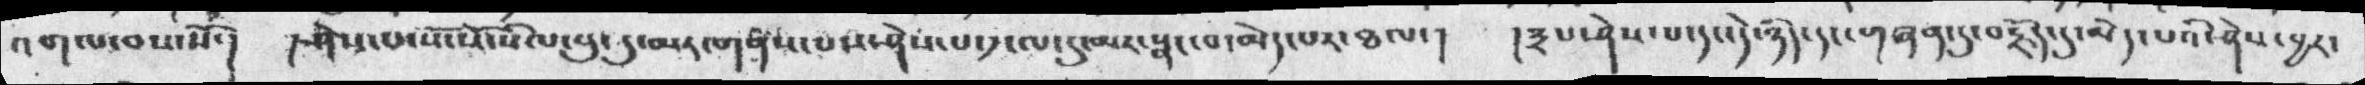འགལ་བས་སོ་།  །ཤེས་པ་སོ་སོ་སིལ་པུ་དུ་མར་གནས་པས་ཤེས་པ་༡་ལ་དུ་མར་སྣང་བ་མེད་པར་ཐལ་། །༣པ་ཤེས་པ་དང་དེ་ཉིད་དང་གཞན་དུ་བརྗོད་དུ་མེད་པའི་ཤེས་བྱར་
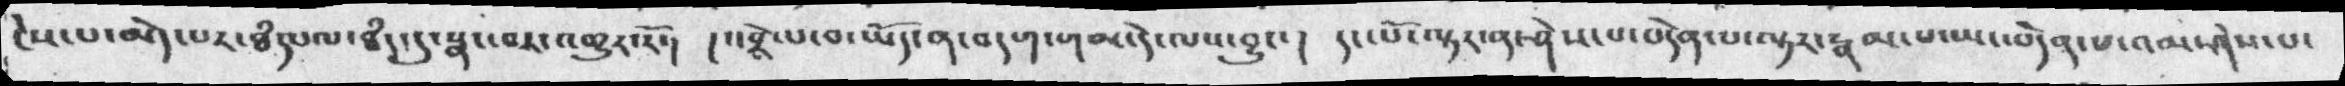ངེས་པ་མེད་པར་ཐཾདཔལ་ཐཾད་དུ་སྣང་བར་འགྱུར་རོ་། །འབྲེལ་བ་ཡོད་ན་བདག་གམ་དེ་ལས་བྱུང་། དང་པོ་ལྟར་ན་ཤེས་པ་བདེན་པ་ལྟར་རྣམ་པ་ཡང་བདེན་པ་འམ་ཤེས་པ་
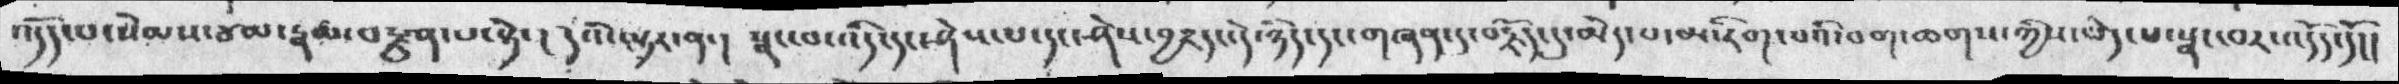འདོད་པ་སེམས་ཙམ་རྣམ་བརྫུན་པ་སྟེ་། དེའི་ལྟར་ན་། སྣང་བ་འདི་དང་ཤེས་པ་དང་ཤེས་བྱ་དང་དེ་ཉིད་དང་གཞན་དུ་བརྗོད་དུ་མེད་པ་མ་རིག་པའི་བག་ཆགས་ཀྱིས་མེད་པ་སྣང་བར་འདོད་དོ།།
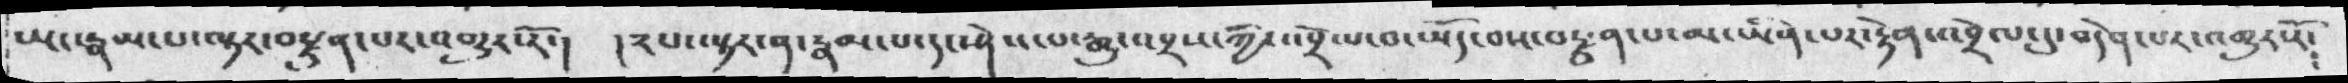ཡང་རྣམ་པ་ལྟར་བརྫུན་པར་འགྱུར་རོ་། །༢པ་ལྟར་ན་རྣམ་པ་དང་ཤེས་པ་རྒྱུ་འབྲས་ཀྱི་འབྲེལ་བ་ཡོད་བས་བརྫུན་པ་མ་ཡིན་པར་རྟེན་འབྲེལ་དུ་བདེན་པར་འགྱུར་རོ།
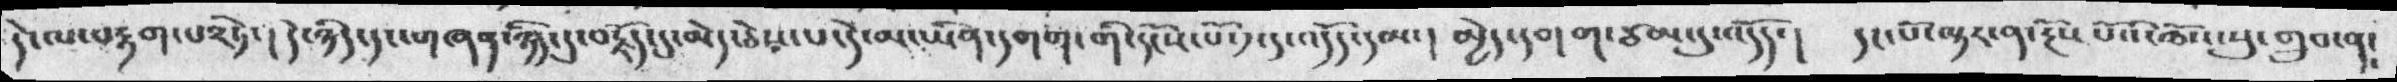དེ་ལ་བརྟག་པ༢ཏེ་། དེ་ཉིད་དང་གཞན་ཉིད་དུ་བརྗོད་དུ་མེད་ཅེས་པ་དེ་མ་ཡིན་དགག་གི་དངོས་པོ་༡་དུ་འདོད་དམ་། མྱེད་དགག་ཙམ་དུ་འདོད་། དང་པོ་ལྟར་ན་རྔོས་པོའི་ཆོས་སུ་གྲུབ་ན།
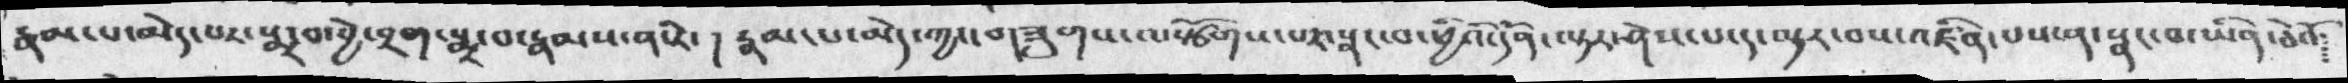རྣམ་པ་མེད་པར་སྨྲ་བ་བྱེ་བྲག་སྨྲ་བ་རྣམས་ན་རེ་། རྣམ་པ་མེད་ཀྱང་གཟུགས་ལསྩོགས་པར་སྣང་བ་ཕྱིའི་དོན་ལྟར་ཤེས་པ་ད་ལྟར་བས་འཛིན་པས་ན་སྣང་བ་ཡིན་ཅེའོ་
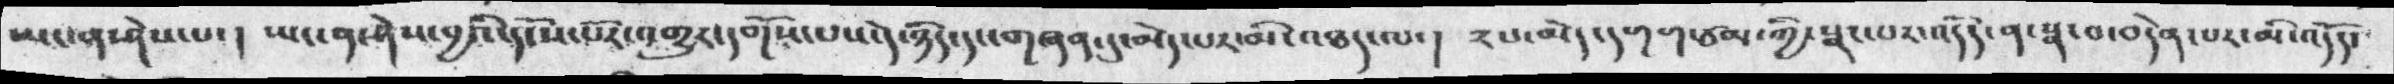ཡང་ན་ཤེས་པ་།  ཡང་ན་ཤེས་བྱའི་དངོས་པོར་འགྱུར་དགོས་པས་དེ་ཉིད་དང་གཞན་དུ་མེད་པར་མི་འཐད་ལ་། ༢པ་མེད་དགག་ཙམ་ཀྱི་སྣང་པར་འདོད་ན་སྣ་བ་བདེན་པར་མི་འདོད་
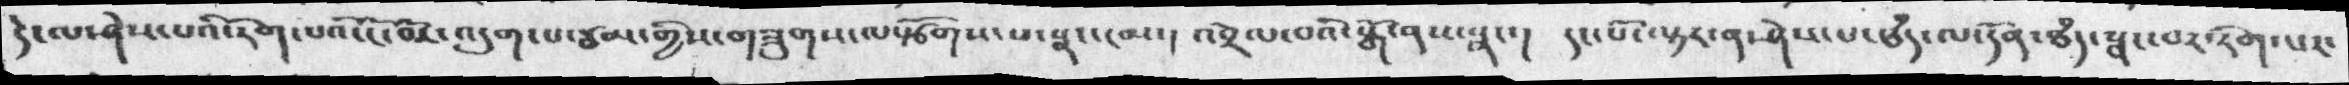དེ་ལ་ཤེས་པཔའི་དགེ་པའི་ངོ་བོར་འདུག་པ་ཙམ་གྱིས་གཟུགས་ལསྩོགས་པ་སྣང་ངམ་། འབྲེལ་བའི་སྒོ་ནས་སྣང་།  དང་པོ་ལྟར་ན་ཤེས་པ་ཐཾད་སྣང་བར་དརིག་པར་
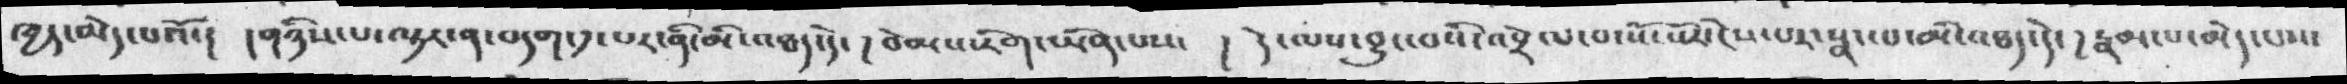ཁྱད་མེད་པའོ་།  །གཉིས་པ་འཏར་ན་བདག་༡་པར་ནི་མི་འཐད་དེ་། བེམས་རིག་ཡིན་པས་ །  དེ་ལས་བྱུང་བའི་འབྲེལ་བ་སོ་སོར་ངེས་པར་སྣང་པ་མི་འཐད་དེ་ །  རྣམ་པ་མེད་པས་
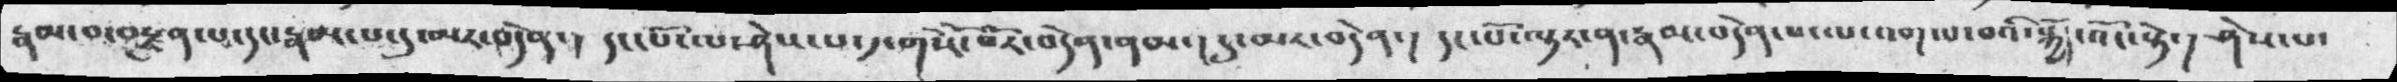རྣམ་བ་བརྫུན་པ་དང་རྣམ་པ་དུ་མར་བདེན་།  དང་པོ་ལ་ཤེས་པ་༡་གསེེ་བོར་བདེན་ནམ་། དུ་མར་བདེན་། དང་པོ་ལྡར་ན་རྣམ་བདེན་པ་ཡང་དག་པ་བའི་སྐྱོད་འོང་སྟེ་།  ཤེས་པ་
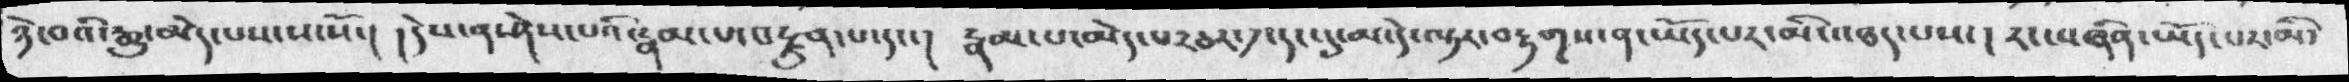ཉེ་བའི་རྒྱུ་མེད་པས་སོ་།  །དེས་ན་ཤེས་པའི་རྣམ་པ་བརྫུན་པ་དང་།  རྣམ་པ་མེད་པ༢ཅར་༡་དང་དུ་མ་དེ་ལྟར་བརྟགས་ན་ཡོད་པར་མི་འཐད་པས་།  རང་བཞིན་ཡོད་པར་མི་
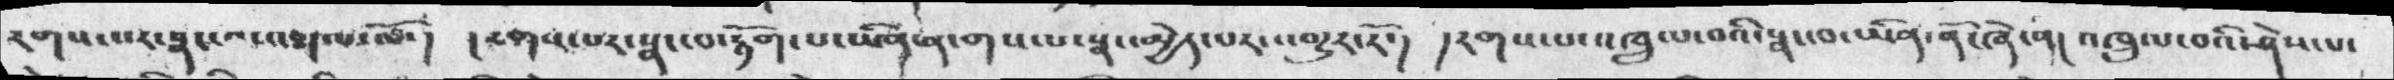རགས་པར་སྣང་བ་འཐད་པ་ལོ་།  །རགས་པར་སྣང་བ་རྟོག་པ་ཡིན་ན་གསལ་སྣང་མྱེད་པར་གྱུར་རོ་།  ། རགས་པ་འཁྲུལ་བའི་སྣང་བ་ཡིན་ནོ་ཞེ་ན།  འཁྲུལ་བའི་ཤེས་པ་
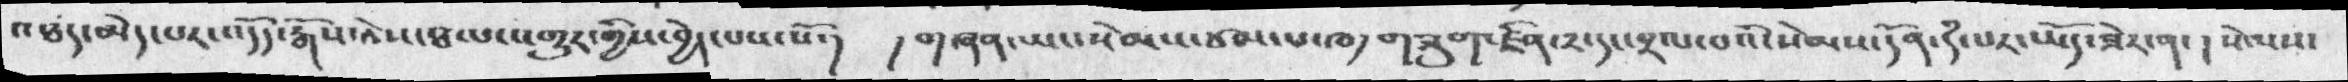འཐད་མེད་པར་འདོད་རྒོས་འེས་ཐལ་འགྱུར་གྱིས་བྱེད་པས་སོ་།  ། གཞན་ཡང་སེམས་ཙམ་པ་ཁ༡གཟུག་ཛིན་༢་དང་བྲལ་བའི་སེམས་དོན་དཾ་པར་ཡོད་ཟེར་ན་། སེམས་
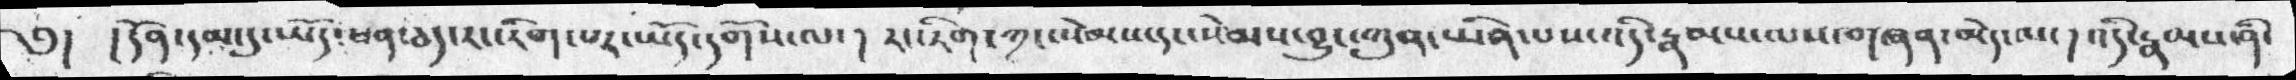༅། །དོན་དམ་དུ་ཡོད་ཕན་ཅད་རང་རིག་པར་ཡོད་དགོས་ལ་། རང་རིག་ཀྱང་སེམས་དང་སེམས་བྱུང་ཀུན་ཡིན་པས་འདི་རྣམས་ལས་གཞན་མེད་ལ་། འདི་རྣམས་ནི་
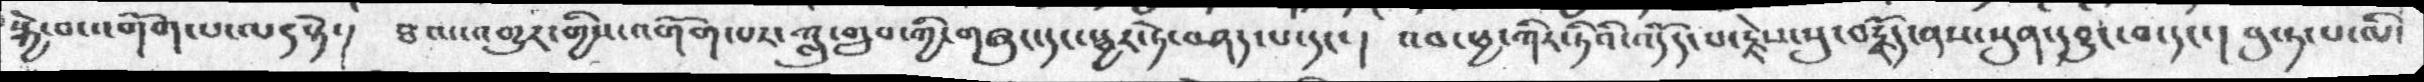སྐྱེ་བ་འགོག་པ་ལད་སྟེ་། ཐལ་འགྱུར་གྱིས་འགོག་པར་ཀླུ་གྲུབ་ཀྱི་གཞུང་དང་སྦྱར་ཏེ་བཤད་པ་དང་། འབ་ཕྱ་ཀིར་ཏིའི་འདོད་པ་རྗེས་སུ་བརྗོད་ནས་སུན་དབྱུང་བ་དང་། བུ་ཏ་པ་ལི་
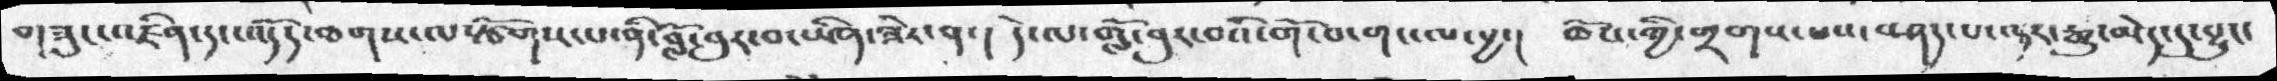གཟུང་འཛིན་དང་འདོད་ཆགས་ལ་སྩོགས་པ་ནི་བློ་བུར་བ་ཡིན་ཟེར་ན་། དེ་ལ་གློ་བུར་བའི་གོ་བ་གང་ལ་བྱ་། ཆོས་ཀྱི་གྲགས་པས་བཤད་པ་ལྟར་རྒྱུ་མེད་དུ་བྱུང་
